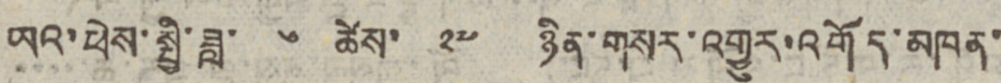ཡའ་ཕེས་སྤྱི་ཟླ་ ༦ ཚེས་ ༢༧ ཉིན་གསར་འགྱུར་འགོད་མཁན་
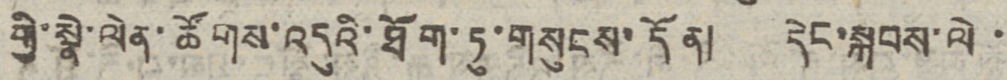གྱི་སྣེ་ལེན་ཚོགས་འདུའི་ཐོག་ཏུ་གསུངས་དོན། དེང་སྐབས་ལེ་
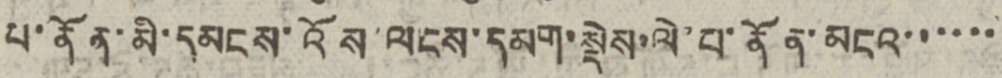པ་ནོན་མི་དམངས་འོས་ལངས་དམག་སྡེས་ལེ་པ་ནོན་མངའ་་་་་་
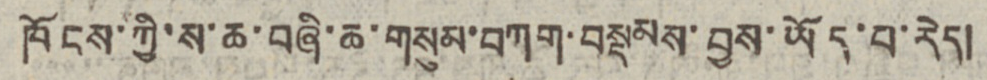ཁོངས་ཀྱི་ས་ཆ་བཞི་ཆ་གསུམ་བཀག་བསྡམས་བྱས་ཡོད་པ་རེད།
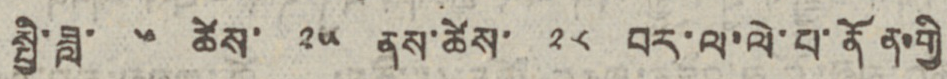སྤྱི་ཟླ་ ༦ ཚེས་ ༢༥ ནས་ཚེས་ ༢༨ བར་ལ་ལེ་པ་ནོན་གྱི
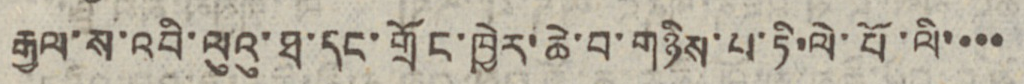རྒྱལ་ས་འབི་ལུའུ་ཐ་དང་གྲོང་ཁྱེར་ཆེ་བ་གཉིས་པ་ཏི་ལེ་པོ་ལི་་་་
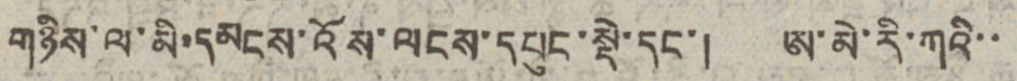གཉིས་ལ་མི་དམངས་འོས་ལངས་དཔུང་སྡེ་དང་། ཨ་མེ་རི་ཀའི་་
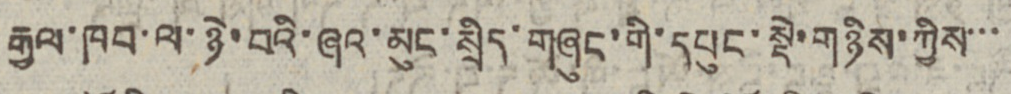རྒྱལ་ཁབ་ལ་ཉེ་བའི་ཞའ་མུང་སྲིད་གཞུང་གི་དཔུང་སྡེ་གཉིས་ཀྱིས་་་
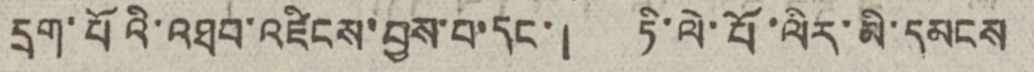དྲག་པོའི་འཐབ་འཛིངས་བྱས་པ་དང་། ཏི་ལེ་པོ་ལིར་མི་དམངས
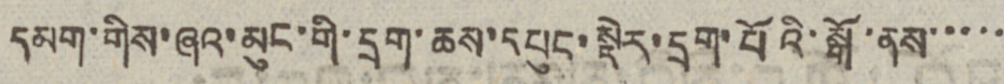དམག་གིས་ཞའ་མུང་གི་དྲག་ཆས་དཔུང་སྡེར་དྲག་པོའི་སྒོ་ནས་་་་་
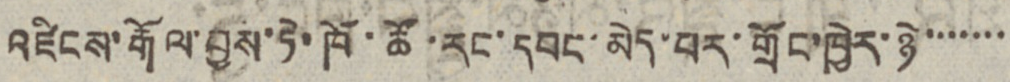འཛིངས་རྒོལ་བྱས་ཏེ་ཁོ་ཚོ་རང་དབང་མེད་པར་གྲོང་ཁྱེར་ཉེ་་་་་་་
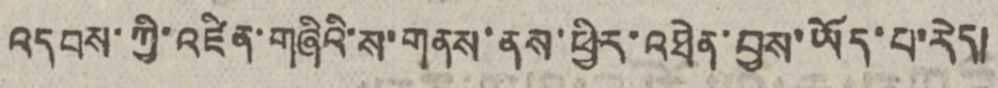འདབས་ཀྱི་འཛིན་གཞིའི་ས་གནས་ནས་ཕྱིར་འཐེན་བྱས་ཡོད་པ་རེད།
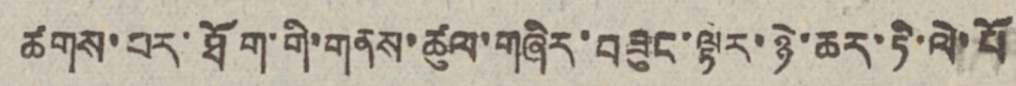ཚགས་པར་ཐོག་གི་གནས་ཚུལ་གཞིར་བཟུང་ལྟར་ཉེ་ཆར་ཏི་ལེ་པོ
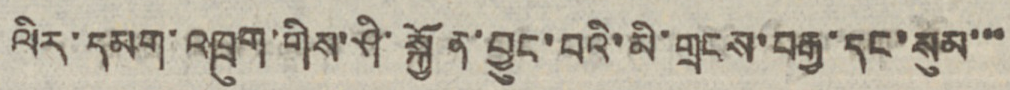ལིར་དམག་འཁྲུག་གིས་ཤི་སྐྱོན་བྱུང་བའི་མི་གྲངས་བརྒྱ་དང་སུམ་་་
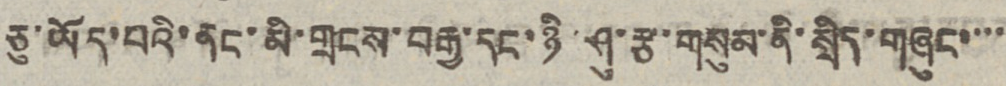ཅུ་ཡོད་པའི་ནང་མི་གྲངས་བརྒྱ་དང་ཉི་ཤུ་རྩ་གསུམ་ནི་སྲིད་གཞུང་་་་
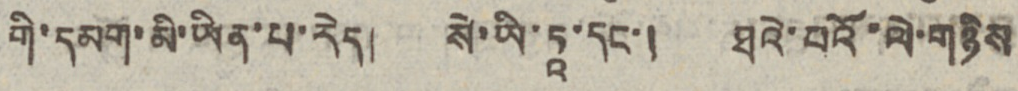གི་དམག་མི་ཡིན་པ་རེད། སེ་ཡི་ཏཱ་དང་། ཐའེ་བའོ་ལེ་གཉིས
